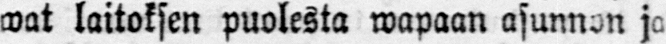wat laitoksen puolesta wapaan asunnon jo
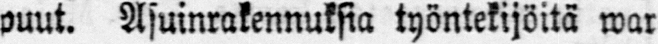puut. Asuinrakennuksia työntekijöitä war-
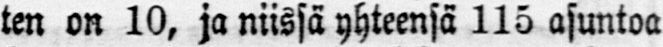ten on 10, ja niissä yhteensä 115 asuntoa.
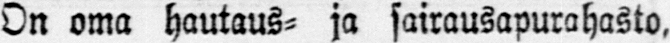On oma hautaus- ja sairausapurahasto,
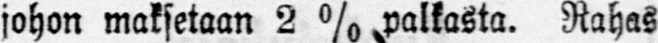johon maksetaan 2% palkasta. Rahas-
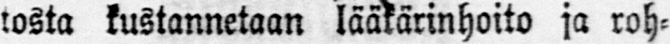tosta kustannetaan lääkärinhoito ja roh-
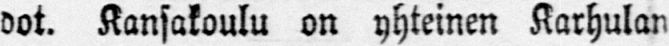dot. Kansakoulu on yhteinen Karhulan
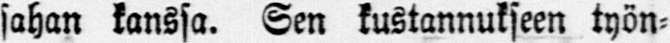sahan kanssa. Sen kustannukseen työn-
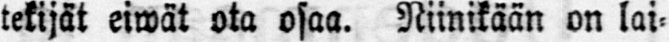tekijät eiwät ota osaa. Niinikään on lai-
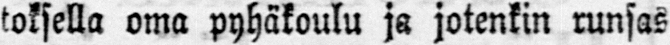toksella oma pyhäkoulu ja jotenkin runsas
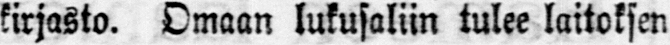kirjasto. Omaan lukusaliin tulee laitoksen
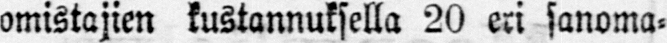omistajien kustannuksella 20 eri sanoma-
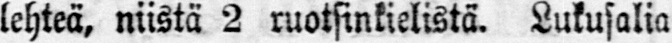lehteä, niistä 2 ruotsinkielistä. Lukusalia
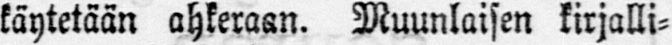käytetään ahkeraan. Muunlaisen kirjalli-
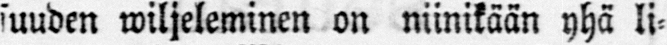suuden wiljeleminen on niinikään yhä li-
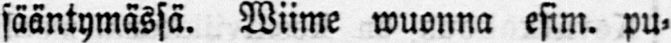sääntymässä. Wiime wuonna esim. pu-
